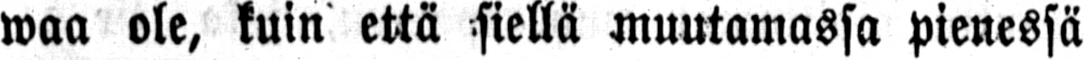waa ole, kuin että siellä muutamassa pienessä
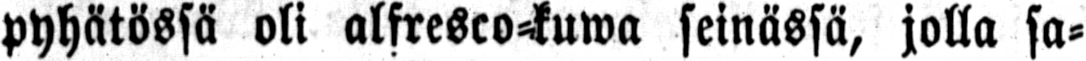pyhätössä oli alfresco-kuwa seinässä, jolla sa-
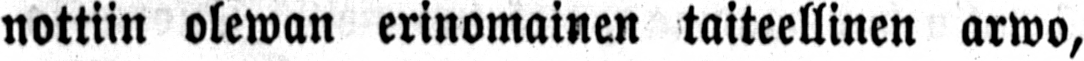nottiin olewan erinomainen taiteellinen arwo,
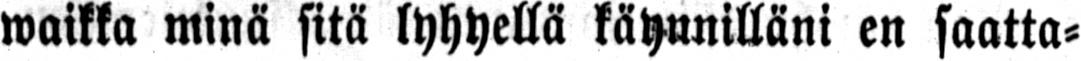waikka minä sitä lyhyellä käynnilläni en saatta-
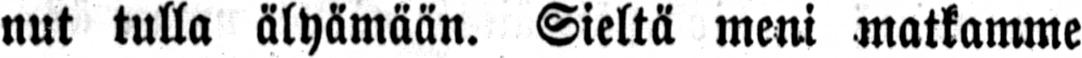nut tulla älyämään. Sieltä meni matkamme
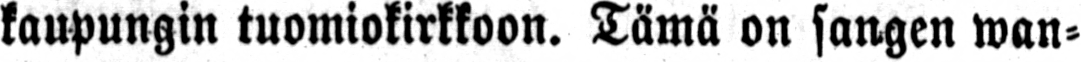kaupungin tuomiokirkkoon. Tämä on sangen wan-
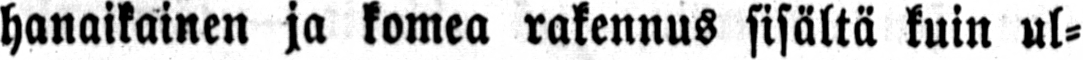hanaikainen ja komea rakennus sisältä kuin ul-
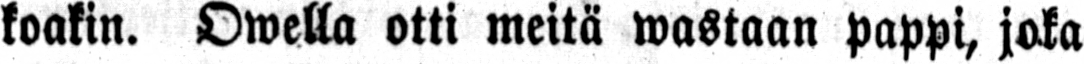koakin. Owella otti meitä wastaan pappi, joka
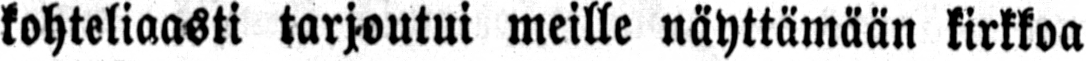kohteliaasti tarjoutui meille näyttämään kirkkoa
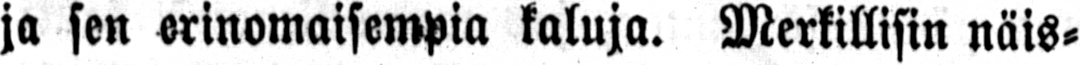ja sen erinomaisempia kaluja. Merkillisin näis-
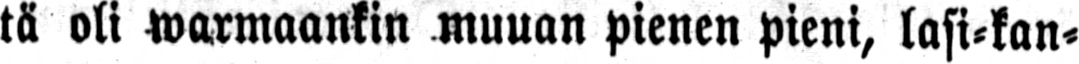tä oli warmaankin muuan pienen pieni, lasi-kan-
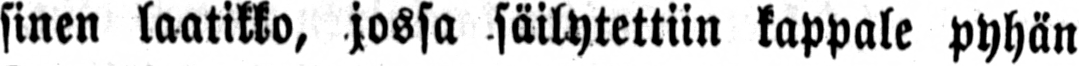sinen laatikko, jossa säilytettiin kappale pyhän
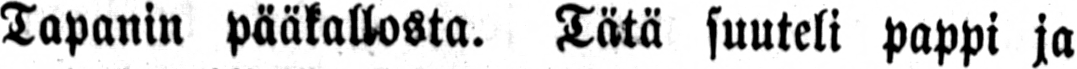Tapanin pääkallosta. Tätä suuteli pappi ja
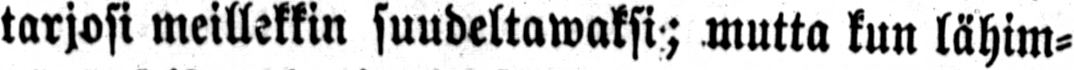tarjosi meillekkin suudeltawaksi; mutta kun lähim-
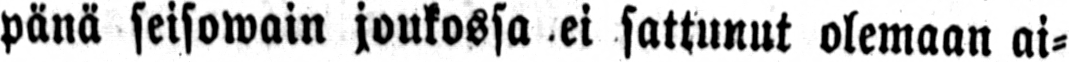pänä seisowain joukossa ei sattunut olemaan ai-
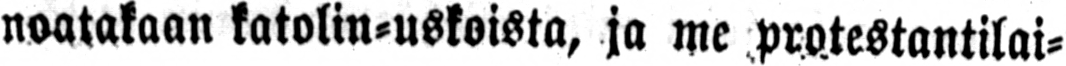noatakaan katolin-uskoista, ja me protestantilai-
